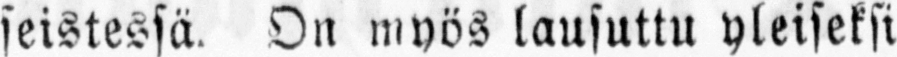seistessä. On myös lausuttu yleiseksi
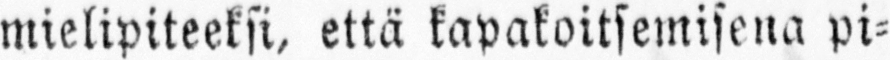mielipiteeksi, että kapakoitsemisena pi-
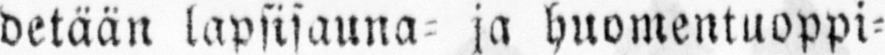detään lapsisauna- ja huomentuoppi-
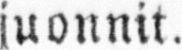juonnit.
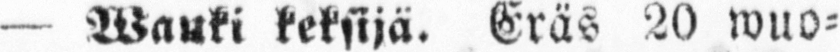— Wanki keksijä. Eräs 20 wuo-
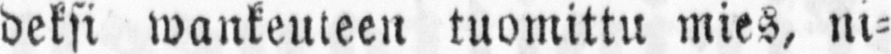deksi wankeuteen tuomittu mies, ni-
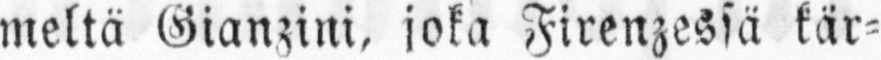meltä Gianzini, joka Firenzessä kär-
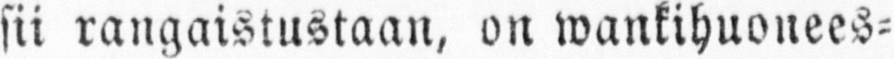sii rangaistustaan, on wankihuonees-
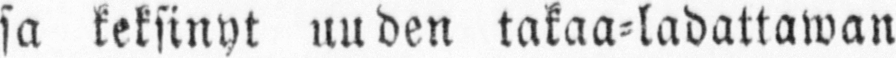sa keksinyt uuden takaa-ladattawan
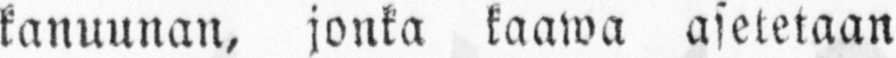kanuunan, jonka kaawa asetetaan
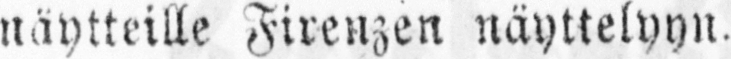näytteille Firenzen näyttelyyn.
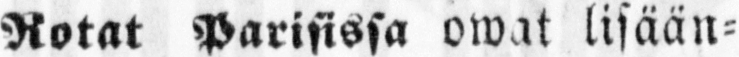— Rotat Parisissa owat lisään-
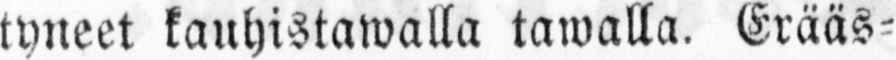tyneet kauhistawalla tawalla. Erääs-
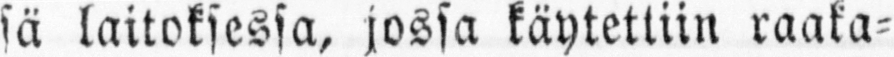sä laitoksessa, jossa käytettiin raaka-
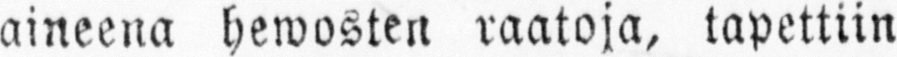aineena hewosten raatoja, tapettiin
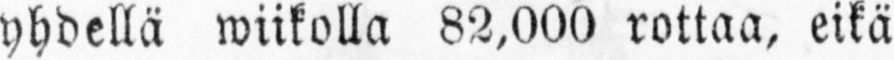yhdellä wiikolla 82,000 rottaa, eikä
